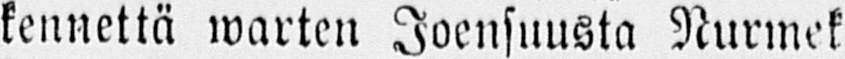kennettä warten Joensuusta Nurmek-
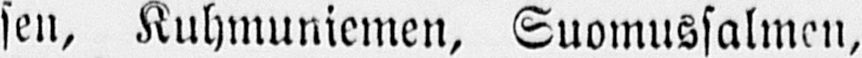sen, Kuhmuniemen, Suomussalmen,
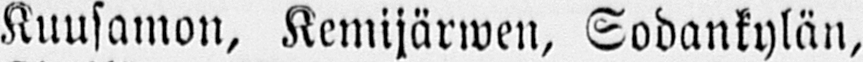Kuusamon, Kemijärwen, Sodankylän,
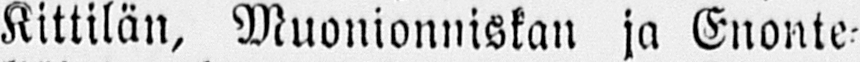Kittilän, Muonionniskan ja Enonte-
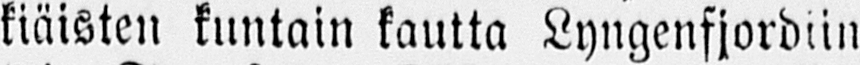kiäisten kuntain kautta Lyngenfjordiin
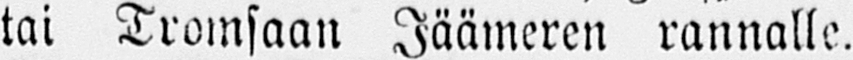tai Tromsaan Jäämeren rannalle.
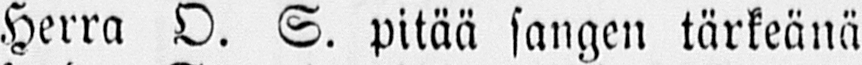Herra O. S. pitää sangen tärkeänä
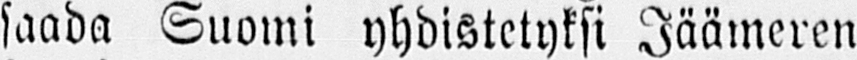saada Suomi yhdistetyksi Jäämeren
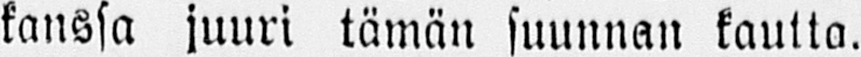kanssa juuri tämän suunnan kautta.
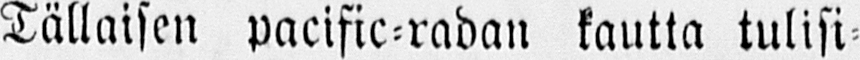Tällaisen pacific-radan kautta tulisi-
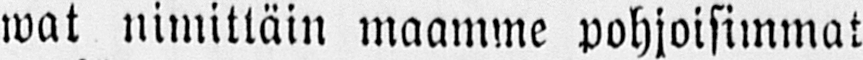wat nimittäin maamme pohjoisimmat
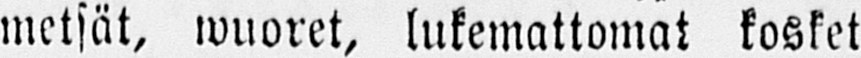metsät, wuoret, lukemattomat kosket
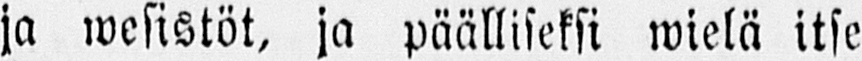ja wesistöt, ja päälliseksi wielä itse
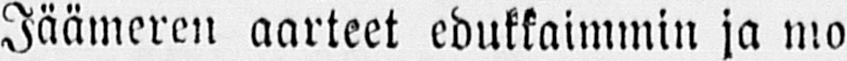Jäämeren aarteet edukkaimmin ja mo-
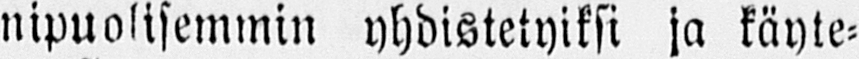nipuolisemmin yhdistetyiksi ja käyte-
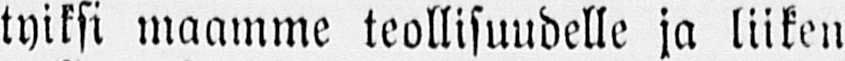tyiksi maamme teollisuudelle ja liiken
